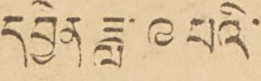དབྱེན ཟླ་ ༩ པའི་
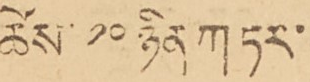ཚེས་ ༡༠ ཉིན་ཀ ཏར་
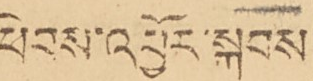ཕེབས་འབྱོར་སྐབས་
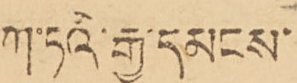ཀ་ཏའི་རྒྱ་དམངས་
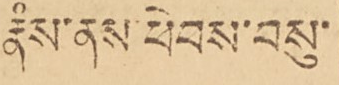རྣཾས་ནས་ཕེབས་བསུ་
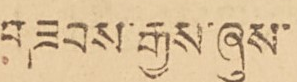གཟབས་རྒྱས་ཞུས་
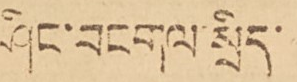ཤིང་བངགལ་སྲིད་
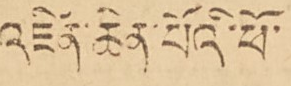འཛིན་ཆེན་པོའི་ཕོ་
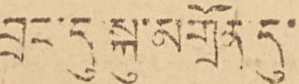བྲང་དུ་སྐུ་མགྲོན དུ་
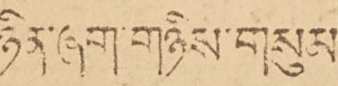ཉིན་ཞག་གཉིས་གསུམ
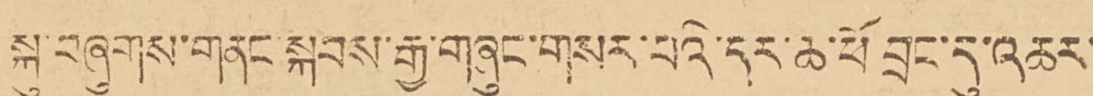སྐུ་བཞུགས་གནང་སྐབས་རྒྱ་གཞུང་གསར་པའི་དར་ཆ་ཕོ བྲང་དུ་འཆར་
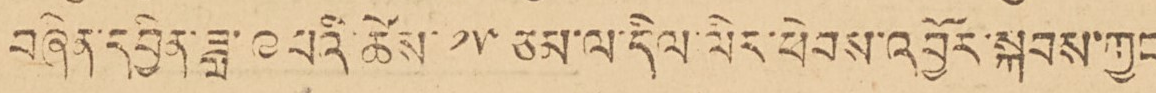བཞིན་དབྱིན་ཟླ་ ༩ པའི་ཚེས་ ༡༥ ཙམ་ལ་དིལ་ལེར་ཕེབས་འབྱོར་སྐབས་ཀྱང་
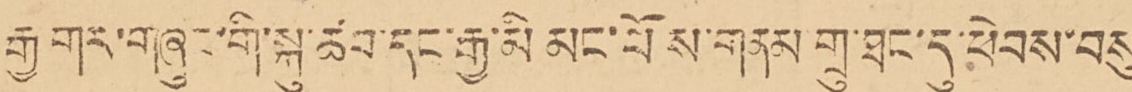རྒྱ་གར་གཞུང་གི་སྐུ་ཚབ་དང་རྒྱ་མི མང་པོས་གནམ གྲུ་ཐང་དུ་ཕེབས་བསུ་
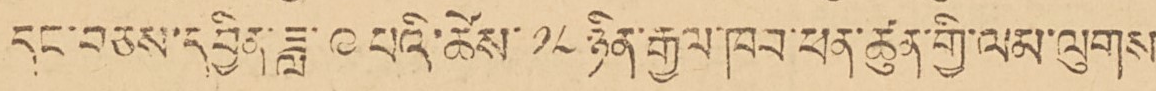དང་བཅས་དབྱིན་ཟླ་ ༩ ཚེས་ ༡༨ ཉིན་རྒྱལ་ཁབ་ཕན་ཚུན་གྱི་ལམ་ལུགས་
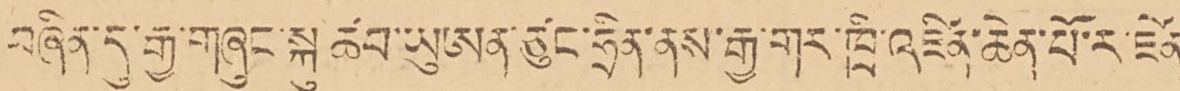བཞིན་དུ་རྒྱ་གཞུང་སྐུ ཚབ་ཡུཨན་ཙུང་ཧྲིན་ནས་རྒྱ་གར་ཁྲི་འཛིན་ཆེན་པོ་ར་ཛེན་
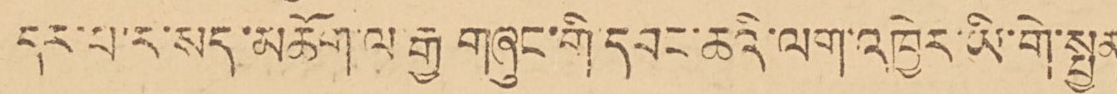དར་པ་ར་སད་མཆོག་ལ་རྒྱ གཞུང་གི་དབང་ཆའི་ལག་འཁྱེར་ཡི་གེ་སྤྱན་
